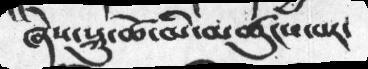ཞེས་སྐུ་ཚེ་མི་མཚུངས་བར་
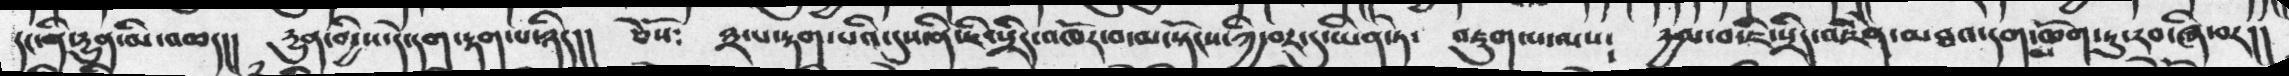དང་ནི་རྱུན་མི་འཆད།།   རྱུན་གྱིས་དེ་དག་རྟག་པ་ཉིད།།   ཅེསོ༴  ༣་པ་རྟག་པའི་དུས་ནི་ཇི་སྲིད་འཁོར་བ་མ་སྟོངས་ཀྱི་བར་དུ་ཡིན་ཏེ་   འཇུག་པ་ལས༴    རྱལ་བ་ཇི་སྲིད་འཇིེན་མཐའ་དག་མཆོག་ཏུ་རབ་ཞི་བར།།
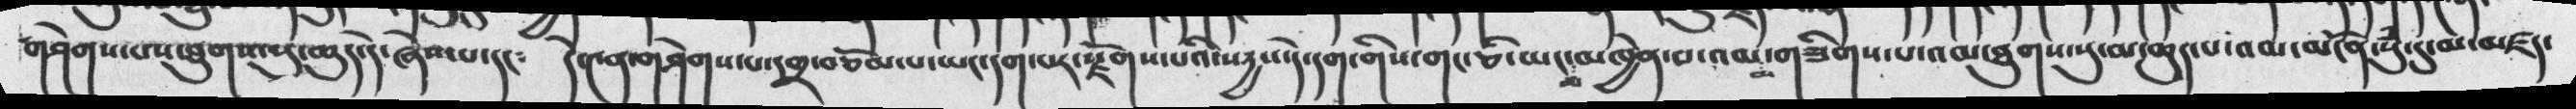གཤེགས་པས་ཐུགས་སུ་ཆུད་དེ་ཞེས་པ་དང༴   དེ་༤ན་གཤེགས་པ་དགྲ་བཅོམ་པ་ཡང་དག་པར་སྫོགས་པའི་སརྱས་དེ་དག་གིས་གང་ཅི་ཡང་མ་མཁྱེན་པ་འམ་མ་གཟིགས་པ་འམ་ཐུགས་སུ་མ་ཆུད་པ་འམ་མངོོན་སུཾ་དུ་མ་མཛད་
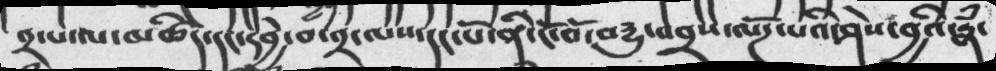༢་པ་ལ་མཚིད་དང་དབྱེ་བ་༢་ལས་དང་པོ་ནི་ངོ་བོ་བདྱུ་འབྲས་ལོཌ་པའི་ཤེས་བྱའི་རྣཾ་
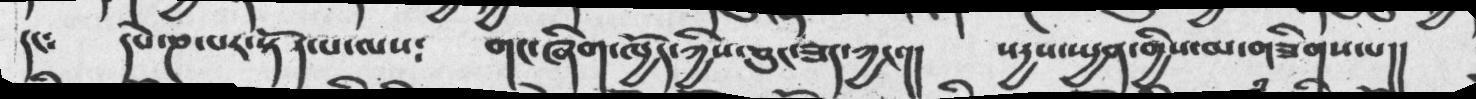དང༴ དཔེ་ཎ་པར་སྟོན་པ་ལས༴  གང་ཞིག་ཁྱོད་ཀྱིས་ཅུང་ཟད་ཀྱང་།།  སདྱས་སྤྱན་གྱིས་མ་གཟིགས་པ།།
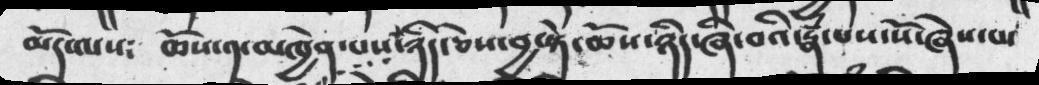མདོ་ལས༴  ཆོས་༡་མཁྱེན་པས་ཉིད་ཅེས་བྱ་སྟེ་ཆོས་ཉིད་ཞི་བའི་རྣཾ་པས་སོ་ཞེས་པ་
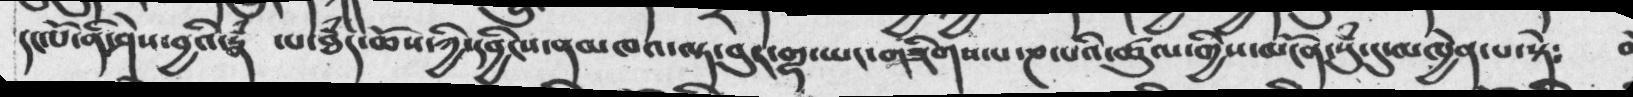དང་པོ་ནི་ཤེས་བྱའི་རྣཾ ་པ་ཐཾད་ཆོས་ཀྱི་དབྱིངས་ནམཁའ་ལྟ་བུར་གྷ་ཡང་གཟིགས་པ་ཎ་པའི་ཚུལ་གྱིས་མངོན་སུཾ་དུ་མཁྱེན་པ་སྟེ༴
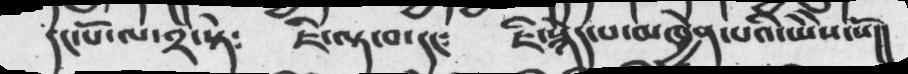དང་པོ་ལ་༢་སྟེ༴  ཇི་ལྟ་བ་དང༴  ཇི་སྙེད་པ་མཁྱེན་པའི་ཡེེས་སོ།།
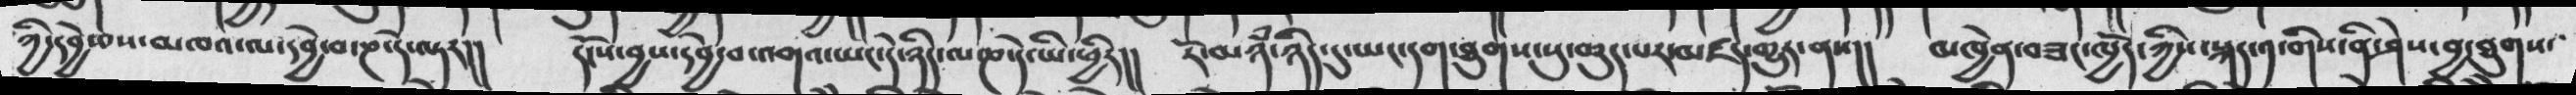ཀྱི་དབྱེ་བས་མཁའ་ལ་དབྱེ་བ་ཎ་དེ་ལྟར།།  དངོས་བྱས་དབྱེ་བ་འགའ་ཡང་དེ་ཉིད་ལ་ཎ་དེ་ཡི་ཕྱིར།།  རོ་མཉཾ་ཉིད་དུ་ཡང་དག་ཐུགས་སུ་ཆུད་པར་མཛད་གྱུར་ནས།།  མཁྱེན་བཟང་ཁྱོད་ཀྱིས་སྐད་༡་གིས་ནི་ཤེས་བྱ་ཐུགས་
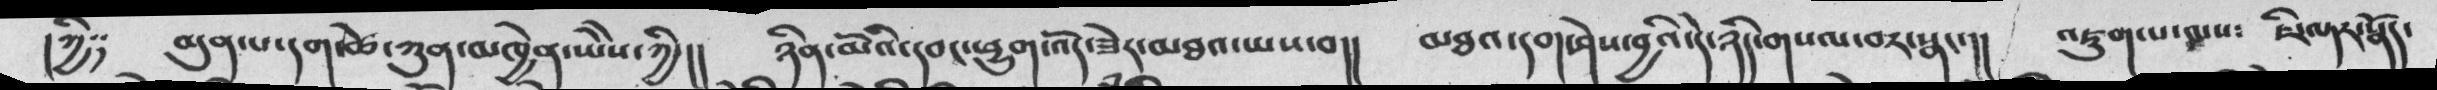།ཀྱི༑  བདུན་པ་དག་ཚེ་ཀུན་མཁྱེན་ཡེེས་ཀྱི།།  ཉིན་མོའི་དབང་ཕྱུག་འོད་ཟེར་མཐའ་ཡས་བ།།  མཐའ་དག་ཤེས་བྱའི་དེ་ཉིད་གསལ་བར་སྣང་།།  འཇུག་པ་ལས༴  ཇི་ལྟར་སྣོད་
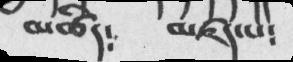མཚིད༴  མཛད་པ༴
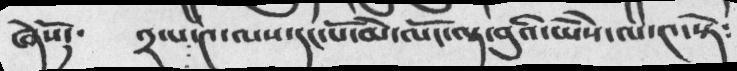ཞེསོ༴       ༢་པ་༤་ལས་དང་པོ་མེ་ལོང་ལྟ་བུའི་ཡེེས་ལ་༤་སྟེ༴
